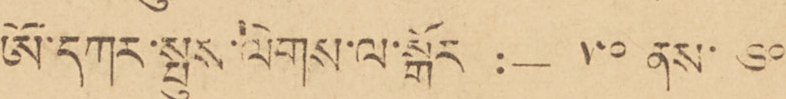ཨོ་དཀར་སྤུས་ལེགས་ལ་སྒོར་:— ༥༠ ནས་ ༦༠
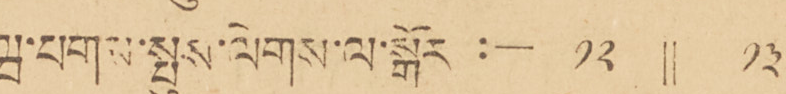ཝ་པག་ལ་སྤུས་ལེགས་ལ་སྒོར་:— ༡༢ || ༡༣
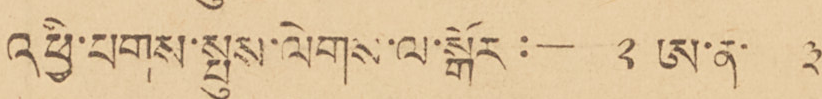འཕྱི་པགས་སྤུས་ལེགས་ལ་སྒོར:— ༢ ཨ་ན་ ༣
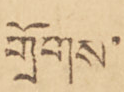གྲོགས་
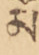མོ་
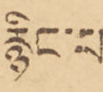རྙིང་པ་
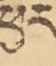ཕྱིར་
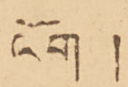ལོག །
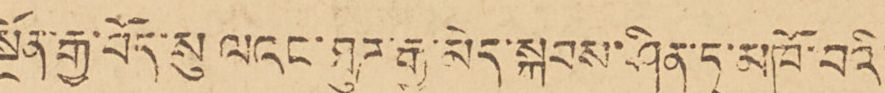སྔོན་རྒྱ་བོད་སུ ལའང་ཐུཊ་རྒྱུ་མེད་སྐབས་ཤིན་མཐོ་བའི་
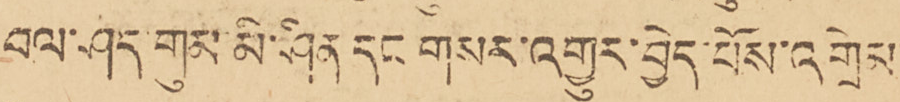བལ་ཤད གུམ་མི་ཤིན་དང་གསར་འགྱུར་བྱེད་པོས་འགྲེམ་
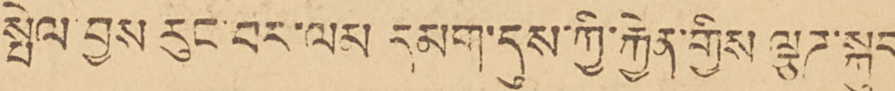སྤེལ་བྱས་རུང་བར་ལམ དམག་དུས་ཀྱི་རྐྱེན་གྱིས་ལྕཊ་སྐུད་
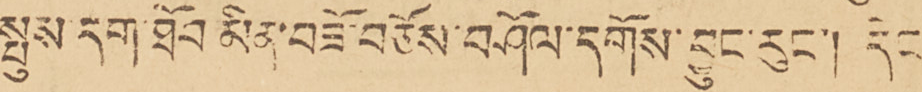སྤུས དག་ཐོབ་མིན་བཟོ་བཅོས་བཤོལ་དགོས་བྱུང་རུང་། དེང་
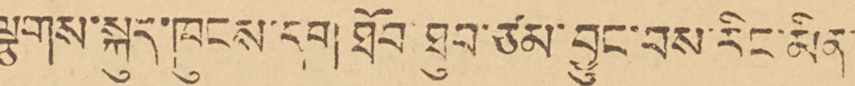ལྕགས་སྐུད་ཁུངས་དག་ཐོབ་ཐུབ་ཙམ་བྱུང་བས་རིང་མིན་
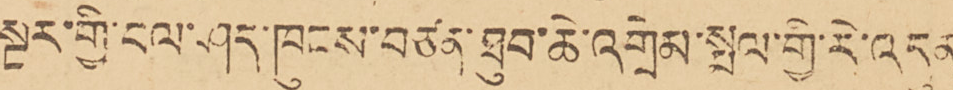སྔར་གྱི་བལ་ཤད་ཁུངས་བཙན་ཐུབ་ཆེ་འགྲེམ་སྤལ་གྱི་རེ་འདུན་
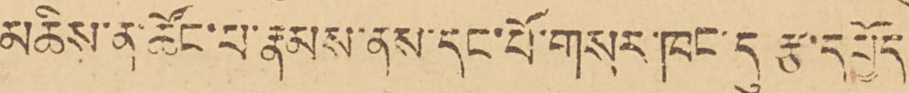མཆིས་ན་ཚོང་པ་རྣམས་ནས་དང་པོ་གསར་ཁང་དུ་རྩ་དཔྱོད་
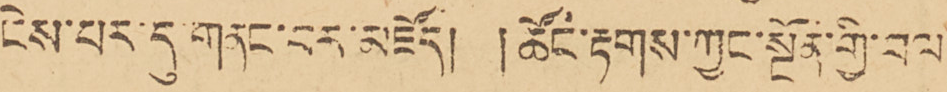ངེས་པེར་དུ་གནང་བར་མཛོད། །ཚོང་རྟགས་ཀྱང་སྔོན་གྱི་བལ་
